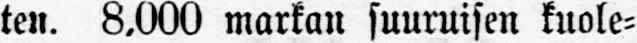ten. 8,000 markan suuruisen kuole-
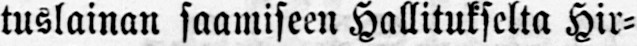tuslainan saamiseen Hallitukselta Hir-
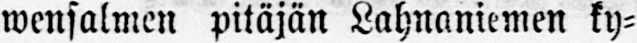wensalmen pitäjän Lahnaniemen ky-
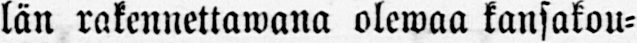län rakennettawana olewaa kansakou-
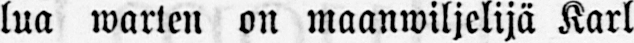lua warten on maanwiljelijä Karl
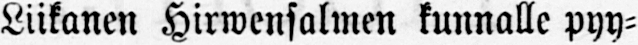Liikanen Hirwensalmen kunnalle pyy-
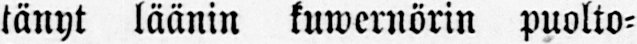tänyt läänin kuwernörin puolto-
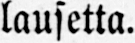lausetta.
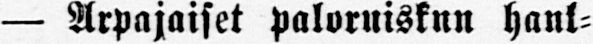— Arpajaiset paloruisknn hank-
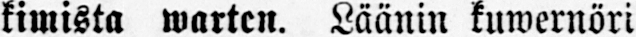kimista warten. Läänin kuwernöri
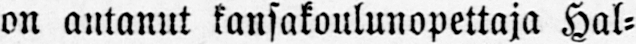on antanut kansakoulunopettaja Hal-
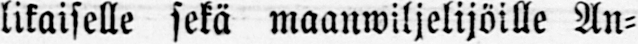likaiselle sekä maanwiljelijöille An-
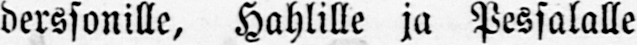derssonille, Hahlille ja Pessalalle
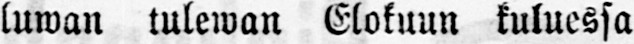luwan tulewan Elokuun kuluessa
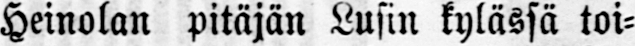Heinolan pitäjän Lusin kylässä toi-
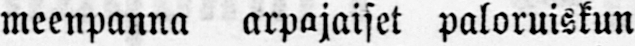meenpanna arpajaiset paloruiskun
